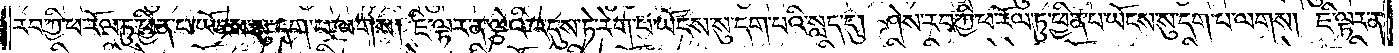རབ་ཀྱི་ཕ་རོལ་ཏུ་ཕྱིན་པ་ཡོངས་སུ་དག་པ་ལགས། ཇི་ལྟར་ན་ལྕེའི་འདུས་ཏེ་རེག་པ་ཡོངས་སུ་དག་པའི་སླད་དུ། ཤེས་རབ་ཀྱི་ཕ་རོལ་ཏུ་ཕྱིན་པ་ཡོངས་སུ་དག་པ་ལགས། ཇི་ལྟར་ན་
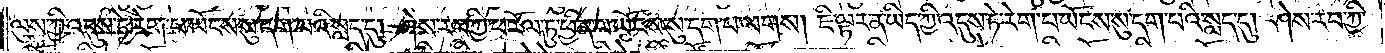ལུས་ཀྱི་འདུས་ཏེ་རེག་པ་ཡོངས་སུ་དག་པའི་སླད་དུ། ཤེས་རབ་ཀྱི་ཕ་རོལ་ཏུ་ཕྱིན་པ་ཡོངས་སུ་དག་པ་ལགས། ཇི་ལྟར་ན་ཡིད་ཀྱི་འདུས་ཏེ་རེག་པ་ཡོངས་སུ་དག་པའི་སླད་དུ། ཤེས་རབ་ཀྱི་
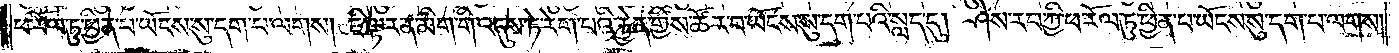ཕ་རོལ་ཏུ་ཕྱིན་པ་ཡོངས་སུ་དག་པ་ལགས། ཇི་ལྟར་ན་མིག་གི་འདུས་ཏེ་རེག་པའི་རྐྱེན་གྱིས་ཚོར་བ་ཡོངས་སུ་དག་པའི་སླད་དུ། ཤེས་རབ་ཀྱི་ཕ་རོལ་ཏུ་ཕྱིན་པ་ཡོངས་སུ་དག་པ་ལགས།
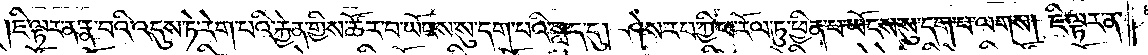ཇི་ལྟར་ན་རྣ་བའི་འདུས་ཏེ་རེག་པའི་རྐྱེན་གྱིས་ཚོར་བ་ཡོངས་སུ་དག་པའི་སླད་དུ། ཤེས་རབ་ཀྱི་ཕ་རོལ་ཏུ་ཕྱིན་པ་ཡོངས་སུ་དག་པ་ལགས། ཇི་ལྟར་ན་
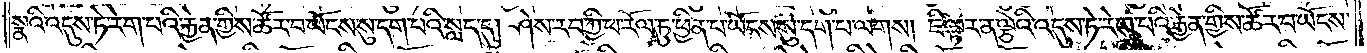སྣའི་འདུས་ཏེ་རེག་པའི་རྐྱེན་གྱིས་ཚོར་བ་ཡོངས་སུ་དག་པའི་སླད་དུ། ཤེས་རབ་ཀྱི་ཕ་རོལ་ཏུ་ཕྱིན་པ་ཡོངས་སུ་དག་པ་ལགས། ཇི་ལྟར་ན་ལྕེའི་འདུས་ཏེ་རེག་པའི་རྐྱེན་གྱིས་ཚོར་བ་ཡོངས་
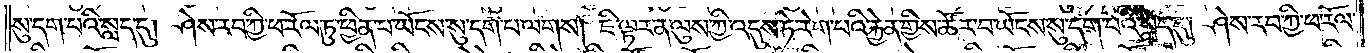སུ་དག་པའི་སླད་དུ། ཤེས་རབ་ཀྱི་ཕ་རོལ་ཏུ་ཕྱིན་པ་ཡོངས་སུ་དག་པ་ལགས། ཇི་ལྟར་ན་ལུས་ཀྱི་འདུས་ཏེ་རེག་པའི་རྐྱེན་གྱིས་ཚོར་བ་ཡོངས་སུ་དག་པའི་སླད་དུ། ཤེས་རབ་ཀྱི་ཕ་རོལ་
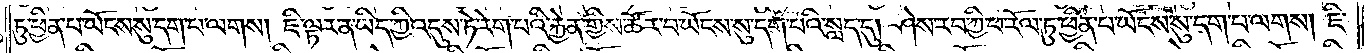ཏུ་ཕྱིན་པ་ཡོངས་སུ་དག་པ་ལགས། ཇི་ལྟར་ན་ཡིད་ཀྱི་འདུས་ཏེ་རེག་པའི་རྐྱེན་གྱིས་ཚོར་བ་ཡོངས་སུ་དག་པའི་སླད་དུ། ཤེས་རབ་ཀྱི་ཕ་རོལ་ཏུ་ཕྱིན་པ་ཡོངས་སུ་དག་པ་ལགས། ཇི་
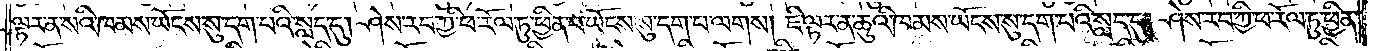ལྟར་ན་སའི་ཁམས་ཡོངས་སུ་དག་པའི་སླད་དུ། ཤེས་རབ་ཀྱི་ཕ་རོལ་ཏུ་ཕྱིན་པ་ཡོངས་སུ་དག་པ་ལགས། ཇི་ལྟར་ན་ཆུའི་ཁམས་ཡོངས་སུ་དག་པའི་སླད་དུ། ཤེས་རབ་ཀྱི་ཕ་རོལ་ཏུ་ཕྱིན་
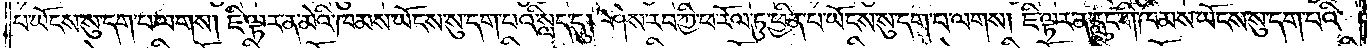པ་ཡོངས་སུ་དག་པ་ལགས། ཇི་ལྟར་ན་མེའི་ཁམས་ཡོངས་སུ་དག་པའི་སླད་དུ། ཤེས་རབ་ཀྱི་ཕ་རོལ་ཏུ་ཕྱིན་པ་ཡོངས་སུ་དག་པ་ལགས། ཇི་ལྟར་ན་རླུང་གི་ཁམས་ཡོངས་སུ་དག་པའི་
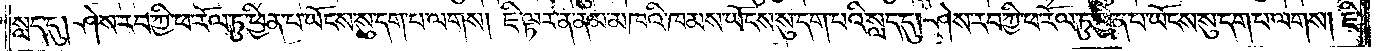སླད་དུ། ཤེས་རབ་ཀྱི་ཕ་རོལ་ཏུ་ཕྱིན་པ་ཡོངས་སུ་དག་པ་ལགས། ཇི་ལྟར་ན་ནམ་མཁའི་ཁམས་ཡོངས་སུ་དག་པའི་སླད་དུ། ཤེས་རབ་ཀྱི་ཕ་རོལ་ཏུ་ཕྱིན་པ་ཡོངས་སུ་དག་པ་ལགས། ཇི་
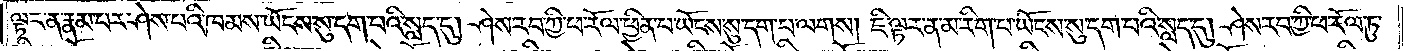ལྟར་ན་རྣམ་པར་ཤེས་པའི་ཁམས་ཡོངས་སུ་དག་པའི་སླད་དུ། ཤེས་རབ་ཀྱི་ཕ་རོལ་ཏུ་ཕྱིན་པ་ཡོངས་སུ་དག་པ་ལགས། ཇི་ལྟར་ན་མ་རིག་པ་ཡོངས་སུ་དག་པའི་སླད་དུ། ཤེས་རབ་ཀྱི་ཕ་རོལ་ཏུ་
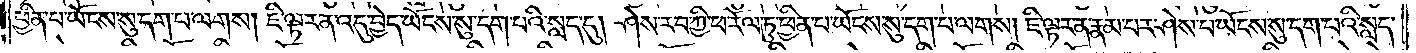ཕྱིན་པ་ཡོངས་སུ་དག་པ་ལགས། ཇི་ལྟར་ན་འདུ་བྱེད་ཡོངས་སུ་དག་པའི་སླད་དུ། ཤེས་རབ་ཀྱི་ཕ་རོལ་ཏུ་ཕྱིན་པ་ཡོངས་སུ་དག་པ་ལགས། ཇི་ལྟར་ན་རྣམ་པར་ཤེས་པ་ཡོངས་སུ་དག་པའི་སླད་
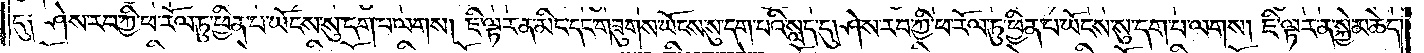དུ༑ ཤེས་རབ་ཀྱི་ཕ་རོལ་ཏུ་ཕྱིན་པ་ཡོངས་སུ་དག་པ་ལགས། ཇི་ལྟར་ན་མིང་དང་གཟུགས་ཡོངས་སུ་དག་པའི་སླད་དུ། ཤེས་རབ་ཀྱི་ཕ་རོལ་ཏུ་ཕྱིན་པ་ཡོངས་སུ་དག་པ་ལགས། ཇི་ལྟར་ན་སྐྱེ་མཆེད་
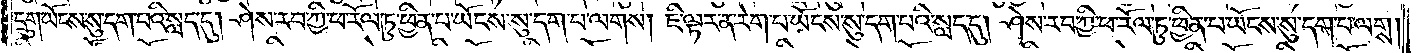དྲུག་ཡོངས་སུ་དག་པའི་སླད་དུ། ཤེས་རབ་ཀྱི་ཕ་རོལ་ཏུ་ཕྱིན་པ་ཡོངས་སུ་དག་པ་ལགས། ཇི་ལྟར་ན་རེག་པ་ཡོངས་སུ་དག་པའི་སླད་དུ། ཤེས་རབ་ཀྱི་ཕ་རོལ་ཏུ་ཕྱིན་པ་ཡོངས་སུ་དག་པ་ལགས།
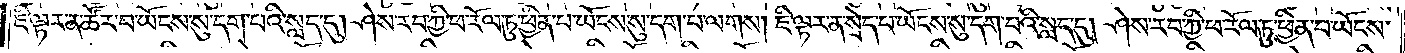ཇི་ལྟར་ན་ཚོར་བ་ཡོངས་སུ་དག་པའི་སླད་དུ། ཤེས་རབ་ཀྱི་ཕ་རོལ་ཏུ་ཕྱིན་པ་ཡོངས་སུ་དག་པ་ལགས། ཇི་ལྟར་ན་སྲེད་པ་ཡོངས་སུ་དག་པའི་སླད་དུ། ཤེས་རབ་ཀྱི་ཕ་རོལ་ཏུ་ཕྱིན་པ་ཡོངས་
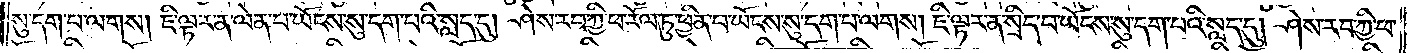སུ་དག་པ་ལགས། ཇི་ལྟར་ན་ལེན་པ་ཡོངས་སུ་དག་པའི་སླད་དུ། ཤེས་རབ་ཀྱི་ཕ་རོལ་ཏུ་ཕྱིན་པ་ཡོངས་སུ་དག་པ་ལགས། ཇི་ལྟར་ན་སྲིད་པ་ཡོངས་སུ་དག་པའི་སླད་དུ། ཤེས་རབ་ཀྱི་ཕ་
